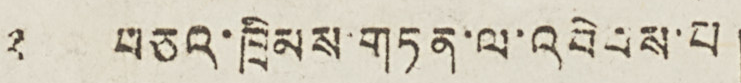༢ བཅའ་ཁྲིམས་གཏན་ལ་འབེབས་པ།
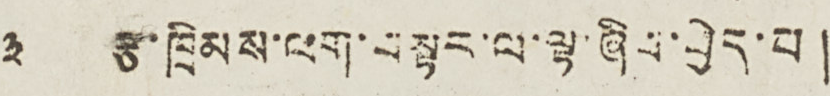༣ རྩ་ཁྲིམས་ལག་བསྟར་ལ་ལྟ་ཞིབ་བྱེད་པ།
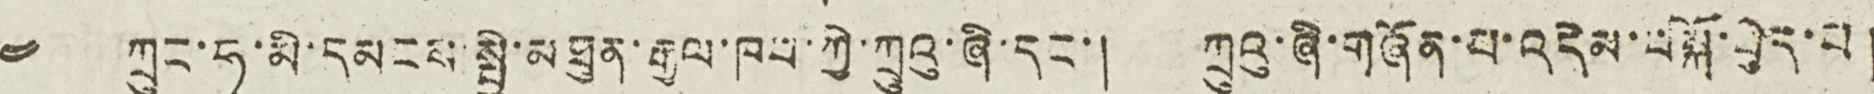༤ ཀྲུང་ཧྭ་མི་དམངས་སྤྱི་མཐུན་རྒྱལ་ཁབ་ཀྱི་ཀྲུའུ་ཞི་དང་། ཀྲུའུ་ཞི་གཞོན་པ་འདེམ་བསྐོ་བྱེད་པ།
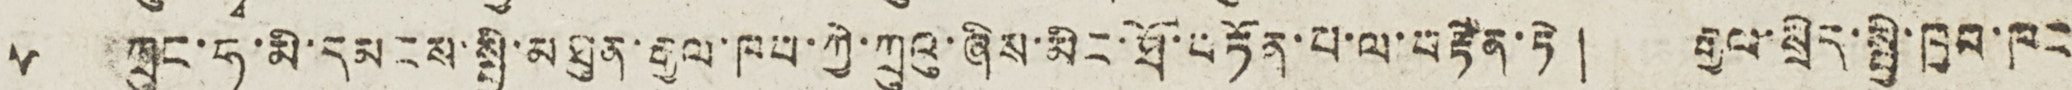༥ ཀྲུང་ཧྭ་མི་དམངས་སྤྱི་མཐུན་རྒྱལ་ཁབ་ཀྱི་ཀྲུའུ་ཞིས་མིང་ཐོ་བཏོན་པ་ལ་བརྟེན་ཏེ། རྒྱལ་སྲིད་སྤྱི་ཁྱབ་ཁང་
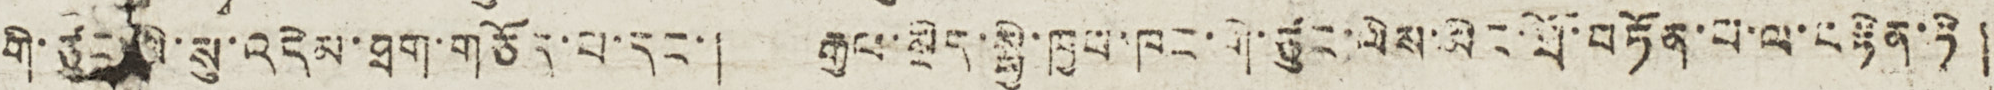གི་ཙུང་ལི་སུ་འདེམ་ཐག་གཅོད་པ་དང་། རྒྱལ་སྲིད་སྤྱི་ཁྱབ་ཁང་གི་ཙུང་ལིས་མིང་ཐོ་བཏོན་པ་ལ་བརྟེན་ཏེ།
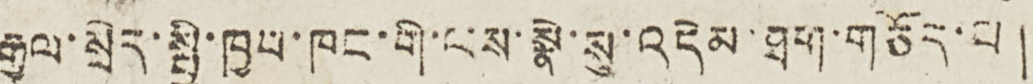རྒྱལ་སྲིད་སྤྱི་ཁྱབ་ཁང་གི་ལས་སྣེ་སུ་འདེམ་ཐག་གཅོད་པ།
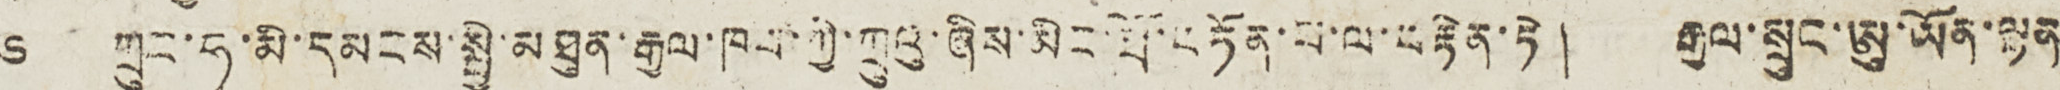༦ ཀྲུང་ཧྭ་མི་དམངས་སྤྱི་མཐུན་རྒྱལ་ཁབ་ཀྱི་ཀྲུའུ་ཞིས་མིང་ཐོ་བཏོན་པ་ལ་བརྟེན་ཏེ། རྒྱལ་སྲུང་ཨུ་ཡོན་ལྷན
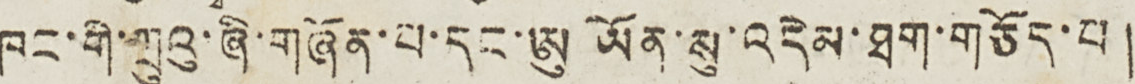ཁང་གི་ཀྲུའུ་ཞི་གཞོན་པ་དང་ཨུ ཡོན་སུ་འདེམ་ཐག་གཅོད་པ།
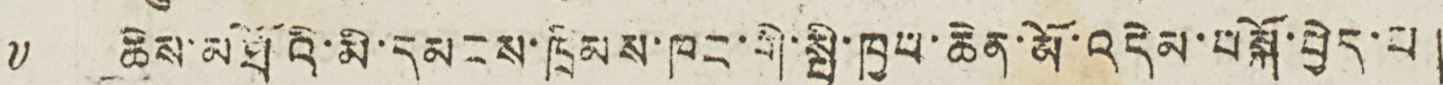༧ ཆེས་མཐོའི་མི་དམངས་ཁྲིམས་ཁང་གི་སྤྱི་ཁྱབ་ཆེན་མོ་འདེམ་བསྐོ་བྱེད་པ།
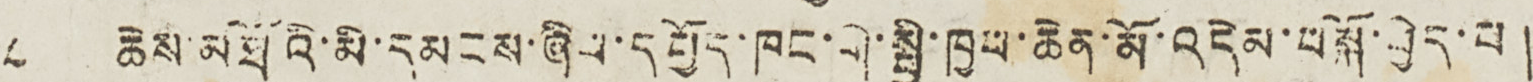༨ ཆེས་མཐོའི་མི་དམངས་ཞིབ་དཔྱོད་ཁང་གི་སྤྱི་ཁྱབ་ཆེན་མོ་འདེམ་བསྐོ་བྱེད་པ།
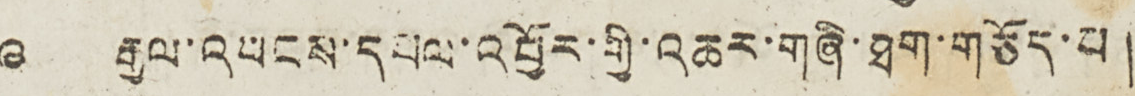༩ རྒྱལ་འབངས་དཔལ་འབྱོར་གྱི་འཆར་གཞི་ཐག་གཅོད་པ།
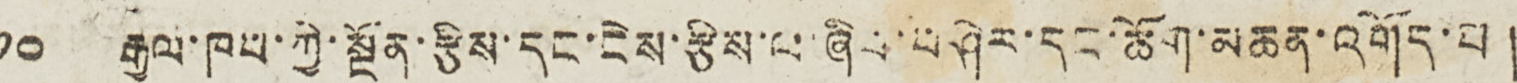༡༠ རྒྱལ་ཁབ་ཀྱི་སྔོན་རྩིས་དང་ངེས་རྩིས་ལ་ཞིབ་བཤེར་དང་ཆོག་མཆན་འགོད་པ།
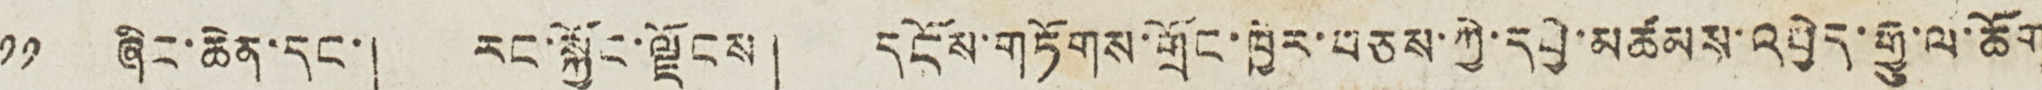༡༡ ཞིང་ཆེན་དང་། རང་སྐྱོང་ལྗོངས། དངོས་གཏོགས་གྲོང་ཁྱེར་བཅས་ཀྱི་དབྱེ་མཚམས་འབྱེད་རྒྱུ་ལ་ཆོག་
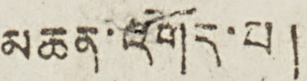མཆན་འགོད་པ།
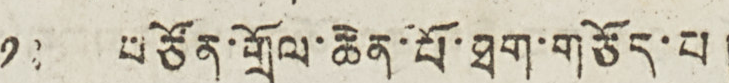༡༢ བཙོན་གྲོལ་ཆེན་པོ་ཐག་གཅོད་པ།
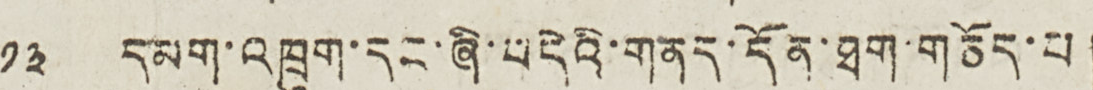༡༣ དམག་འཁྲུག་དང་ཞི་བདེའི་གནད་དོན་ཐག་གཅོད་པ།
